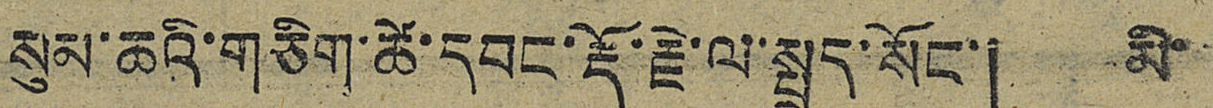སུམ་ཆའི་གཅིག་ཚེ་དབང་རྡོ་རྗེ་ལ་སྤྲད་སོང་། མི་
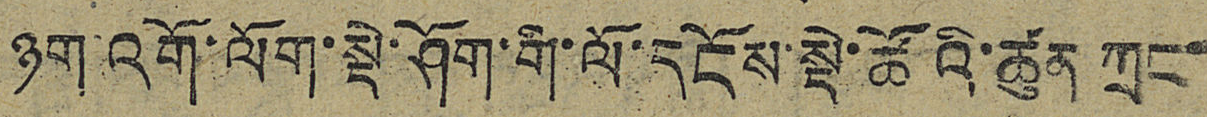ཉག་འགོ་ལོག་སྡེ་ཤོག་གི་ལོ་དངོས་སྡེ་ཚོའི་ཚུན་ཀྲང་
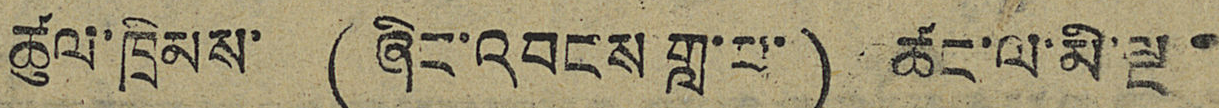ཚུལ་ཁྲིམས་(ཞིང་འབངས་གླ་པ་)ཚང་ལ་མི་ལྔ་
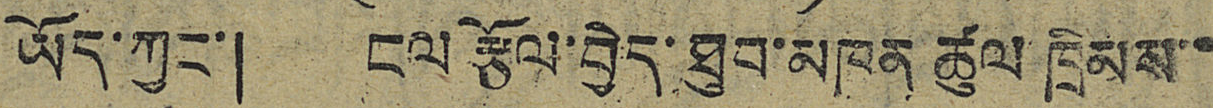ཡོད་ཀྱང་། ངལ་རྩོལ་བྱེད་ཐུབ་མཁན ཚུལ ཁྲིམས་
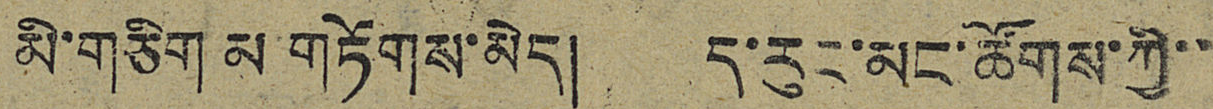མི་གཅིག མ གཏོགས་མེད། ད་རུང་མང་ཚོགས་ཀྱི་་
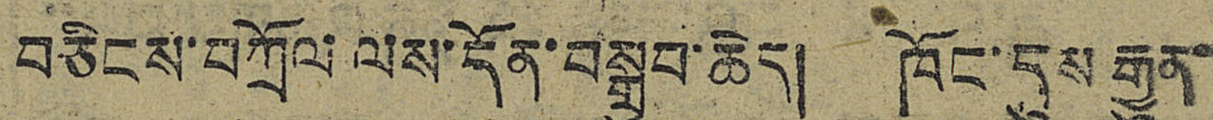བཅིངས་བཀྲོལ་ལས་དོན་བསྒྲུབ་ཆེད། ཁོང་དུས རྒྱུན་
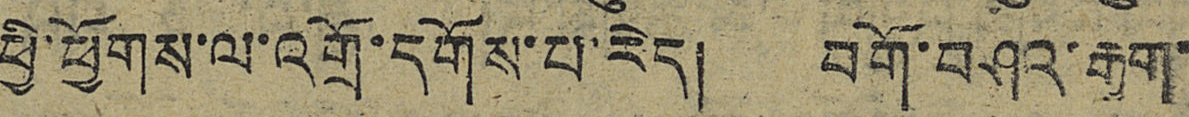ཕྱི་ཕྱོགས་ལ་འགྲོ་དགོས་པ་རེད། བགོ་བཤའ་རྒྱག་
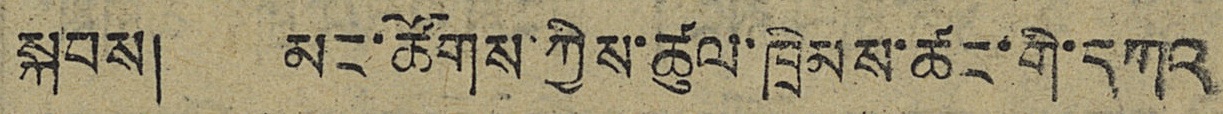སྐབས། མང་ཚོགས་ཀྱིས་ཚུལ་ཁྲིམས་ཚང་གི་དཀའ
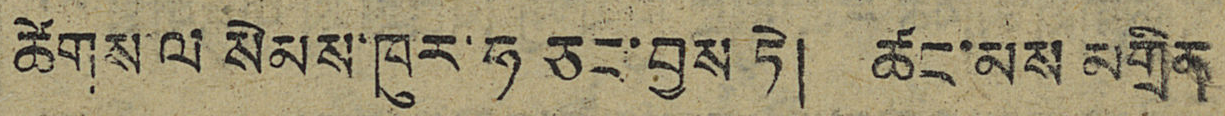ཚེགས་ལ སེམས་ཁུར་ཧ ཅང་བྱས ཏེ། ཚང་མས མགྲིན
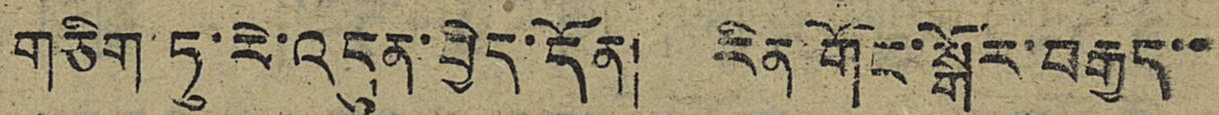གཅིག་ཏུ་རེ་འདུན་བྱེད་དོན། རིན་གོང་སྒོར་བརྒྱད་་
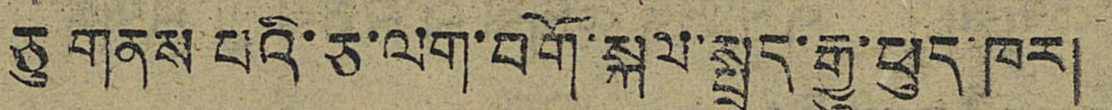ཅུ གནས པའི་ཅ་ལག་བགོ་སྐལ་སྤྲད་རྒྱུ་ཕུད་ཁར།
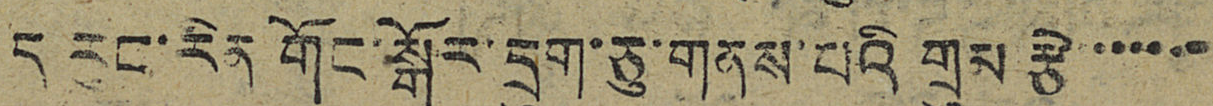ད རུང་རིན གོང་སྒོར་དྲུག་ཅུ་གནས་པའི གྲུམ རྩེ་་་་་་
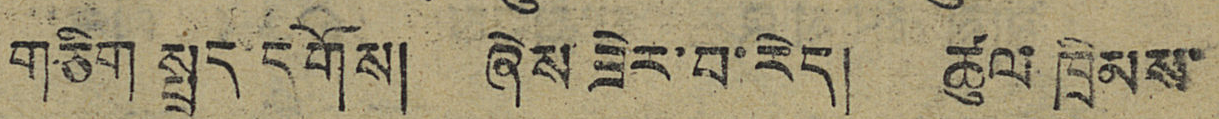གཅིག སྤྲད་དགོས། ཞེས་ཟེར་བ་རེད། ཚུལ་ཁྲིམས་
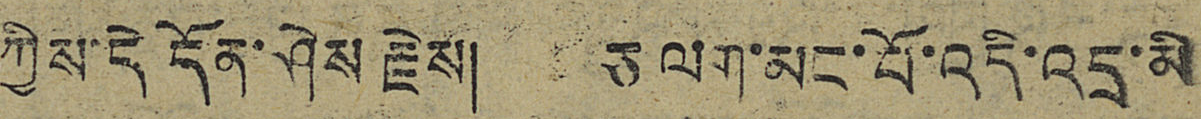ཀྱིས་དེ དོན་ཤེས རྗེས། ཅ ལག་མང་བོ་འདི་འདྲ་མི
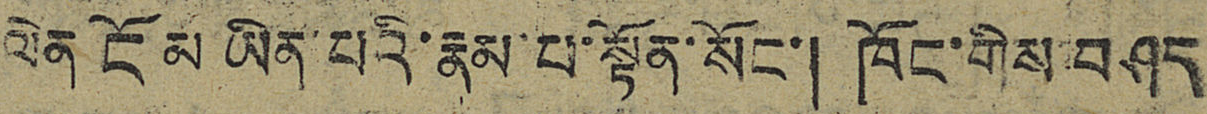ལེན ངོ མ ཡིན་པའི་རྣམ་པ་སྟོན་སོང་། ཁོང་གིས་བཤད
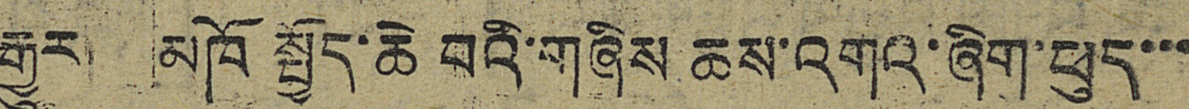རྒྱུར། མཁོ སྤྱོད་ཆེ བའི་གཞིས ཆས་འགའ་ཞིག་ཕུད་་་
